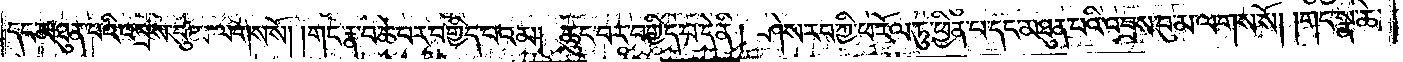དང་མཐུན་པའི་འབྲས་བུ་མ་ལགས་སོ། །གང་རྣ་བ་ཆེ་བར་བགྱིད་པའམ། ཆུང་བར་བགྱིད་པ་དེ་ནི། ཤེས་རབ་ཀྱི་ཕ་རོལ་ཏུ་ཕྱིན་པ་དང་མཐུན་པའི་འབྲས་བུ་མ་ལགས་སོ། །གང་སྣ་ཆེ་
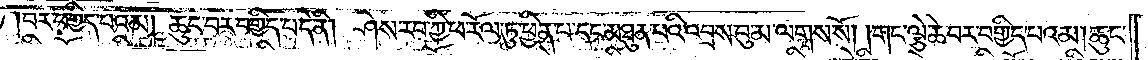བར་བགྱིད་པའམ། ཆུང་བར་བགྱིད་པ་དེ་ནི། ཤེས་རབ་ཀྱི་ཕ་རོལ་ཏུ་ཕྱིན་པ་དང་མཐུན་པའི་འབྲས་བུ་མ་ལགས་སོ། །གང་ལྕེ་ཆེ་བར་བགྱིད་པའམ། ཆུང་
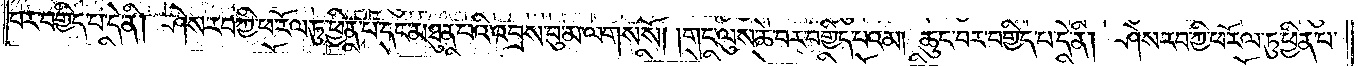བར་བགྱིད་པ་དེ་ནི། ཤེས་རབ་ཀྱི་ཕ་རོལ་ཏུ་ཕྱིན་པ་དང་མཐུན་པའི་འབྲས་བུ་མ་ལགས་སོ། །གང་ལུས་ཆེ་བར་བགྱིད་པའམ། ཆུང་བར་བགྱིད་པ་དེ་ནི། ཤེས་རབ་ཀྱི་ཕ་རོལ་ཏུ་ཕྱིན་པ་
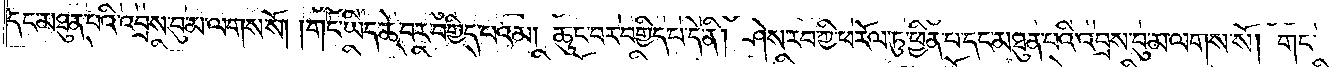དང་མཐུན་པའི་འབྲས་བུ་མ་ལགས་སོ། །གང་ཡིད་ཆེ་བར་བགྱིད་པའམ། ཆུང་བར་བགྱིད་པ་དེ་ནི། ཤེས་རབ་ཀྱི་ཕ་རོལ་ཏུ་ཕྱིན་པ་དང་མཐུན་པའི་འབྲས་བུ་མ་ལགས་སོ། །གང་
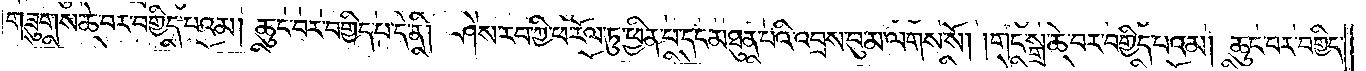གཟུགས་ཆེ་བར་བགྱིད་པའམ། ཆུང་བར་བགྱིད་པ་དེ་ནི། ཤེས་རབ་ཀྱི་ཕ་རོལ་ཏུ་ཕྱིན་པ་དང་མཐུན་པའི་འབྲས་བུ་མ་ལགས་སོ། །གང་སྒྲ་ཆེ་བར་བགྱིད་པའམ། ཆུང་བར་བགྱིད་
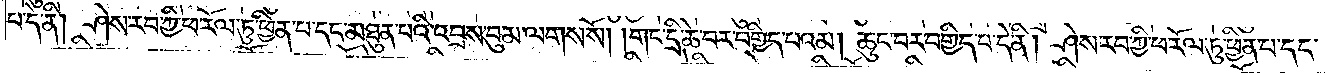པ་དེ་ནི། ཤེས་རབ་ཀྱི་ཕ་རོལ་ཏུ་ཕྱིན་པ་དང་མཐུན་པའི་འབྲས་བུ་མ་ལགས་སོ། །གང་དྲི་ཆེ་བར་བགྱིད་པའམ། ཆུང་བར་བགྱིད་པ་དེ་ནི། ཤེས་རབ་ཀྱི་ཕ་རོལ་ཏུ་ཕྱིན་པ་དང་
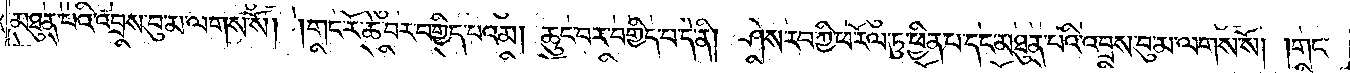མཐུན་པའི་འབྲས་བུ་མ་ལགས་སོ། །གང་རོ་ཆེ་བར་བགྱིད་པའམ། ཆུང་བར་བགྱིད་པ་དེ་ནི། ཤེས་རབ་ཀྱི་ཕ་རོལ་ཏུ་ཕྱིན་པ་དང་མཐུན་པའི་འབྲས་བུ་མ་ལགས་སོ། །གང་
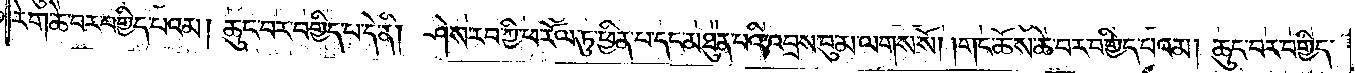རེག་ཆེ་བར་བགྱིད་པའམ། ཆུང་བར་བགྱིད་པ་དེ་ནི། ཤེས་རབ་ཀྱི་ཕ་རོལ་ཏུ་ཕྱིན་པ་དང་མཐུན་པའི་འབྲས་བུ་མ་ལགས་སོ། །གང་ཆོས་ཆེ་བར་བགྱིད་པའམ། ཆུང་བར་བགྱིད་
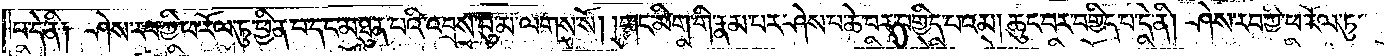པ་དེ་ནི༑ ཤེས་རབ་ཀྱི་ཕ་རོལ་ཏུ་ཕྱིན་པ་དང་མཐུན་པའི་འབྲས་བུ་མ་ལགས་སོ། །གང་མིག་གི་རྣམ་པར་ཤེས་པ་ཆེ་བར་བགྱིད་པའམ། ཆུང་བར་བགྱིད་པ་དེ་ནི། ཤེས་རབ་ཀྱི་ཕ་རོལ་ཏུ་
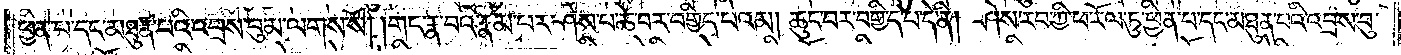ཕྱིན་པ་དང་མཐུན་པའི་འབྲས་བུ་མ་ལགས་སོ། །གང་རྣ་བའི་རྣམ་པར་ཤེས་པ་ཆེ་བར་བགྱིད་པའམ། ཆུང་བར་བགྱིད་པ་དེ་ནི། ཤེས་རབ་ཀྱི་ཕ་རོལ་ཏུ་ཕྱིན་པ་དང་མཐུན་པའི་འབྲས་བུ་
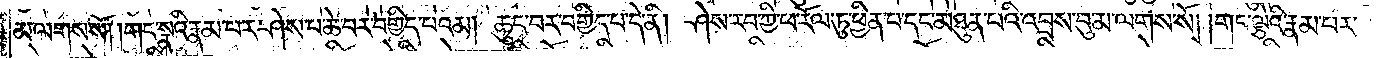མ་ལགས་སོ། །གང་སྣའི་རྣམ་པར་ཤེས་པ་ཆེ་བར་བགྱིད་པའམ། ཆུང་བར་བགྱིད་པ་དེ་ནི། ཤེས་རབ་ཀྱི་ཕ་རོལ་ཏུ་ཕྱིན་པ་དང་མཐུན་པའི་འབྲས་བུ་མ་ལགས་སོ། །གང་ལྕེའི་རྣམ་པར་
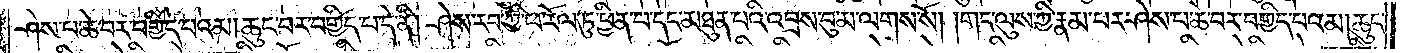ཤེས་པ་ཆེ་བར་བགྱིད་པའམ། ཆུང་བར་བགྱིད་པ་དེ་ནི། ཤེས་རབ་ཀྱི་ཕ་རོལ་ཏུ་ཕྱིན་པ་དང་མཐུན་པའི་འབྲས་བུ་མ་ལགས་སོ། །གང་ལུས་ཀྱི་རྣམ་པར་ཤེས་པ་ཆེ་བར་བགྱིད་པའམ། ཆུང་
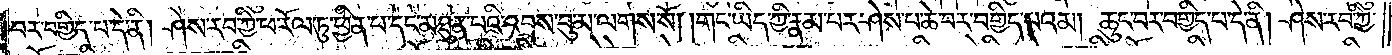བར་བགྱིད་པ་དེ་ནི། ཤེས་རབ་ཀྱི་ཕ་རོལ་ཏུ་ཕྱིན་པ་དང་མཐུན་པའི་འབྲས་བུ་མ་ལགས་སོ། །གང་ཡིད་ཀྱི་རྣམ་པར་ཤེས་པ་ཆེ་བར་བགྱིད་པའམ། ཆུང་བར་བགྱིད་པ་དེ་ནི། ཤེས་རབ་ཀྱི་
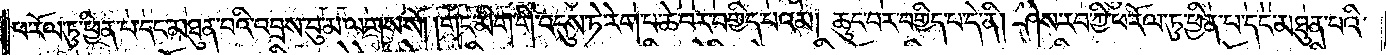ཕ་རོལ་ཏུ་ཕྱིན་པ་དང་མཐུན་པའི་འབྲས་བུ་མ་ལགས་སོ། །གང་མིག་གི་འདུས་ཏེ་རེག་པ་ཆེ་བར་བགྱིད་པའམ། ཆུང་བར་བགྱིད་པ་དེ་ནི། ཤེས་རབ་ཀྱི་ཕ་རོལ་ཏུ་ཕྱིན་པ་དང་མཐུན་པའི་
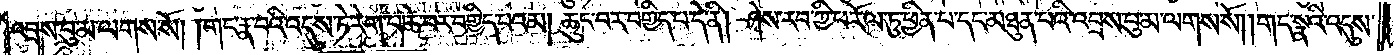འབྲས་བུ་མ་ལགས་སོ། །གང་རྣ་བའི་འདུས་ཏེ་རེག་པ་ཆེ་བར་བགྱིད་པའམ། ཆུང་བར་བགྱིད་པ་དེ་ནི། ཤེས་རབ་ཀྱི་ཕ་རོལ་ཏུ་ཕྱིན་པ་དང་མཐུན་པའི་འབྲས་བུ་མ་ལགས་སོ། །གང་སྣའི་འདུས་
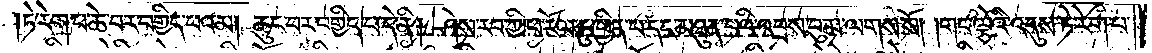ཏེ་རེག་པ་ཆེ་བར་བགྱིད་པའམ། ཆུང་བར་བགྱིད་པ་དེ་ནི། ཤེས་རབ་ཀྱི་ཕ་རོལ་ཏུ་ཕྱིན་པ་དང་མཐུན་པའི་འབྲས་བུ་མ་ལགས་སོ། །གང་ལྕེའི་འདུས་ཏེ་རེག་པ་
